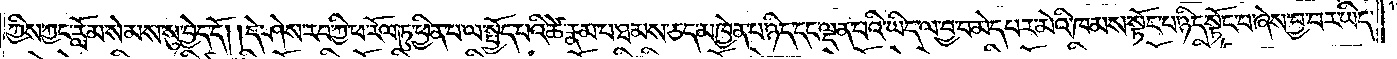ཀྱིས་ཀྱང་རློམ་སེམས་སུ་བྱེད་དོ། །དེ་ཤེས་རབ་ཀྱི་ཕ་རོལ་ཏུ་ཕྱིན་པ་ལ་སྤྱོད་པའི་ཚེ་རྣམ་པ་ཐམས་ཅད་མཁྱེན་པ་ཉིད་དང་ལྡན་པའི་ཡིད་ལ་བྱ་བ་མེད་པར་མེའི་ཁམས་སྟོང་པ་ཉིད་སྟོང་པ་ཞེས་བྱ་བར་ཡིད་
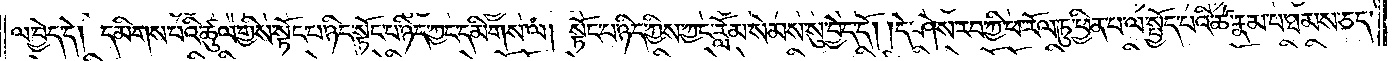ལ་བྱེད་དེ། དམིགས་པའི་ཚུལ་གྱིས་སྟོང་པ་ཉིད་སྟོང་པ་ཉིད་ཀྱང་དམིགས་ལ། སྟོང་པ་ཉིད་ཀྱིས་ཀྱང་རློམ་སེམས་སུ་བྱེད་དོ། །དེ་ཤེས་རབ་ཀྱི་ཕ་རོལ་ཏུ་ཕྱིན་པ་ལ་སྤྱོད་པའི་ཚེ་རྣམ་པ་ཐམས་ཅད་
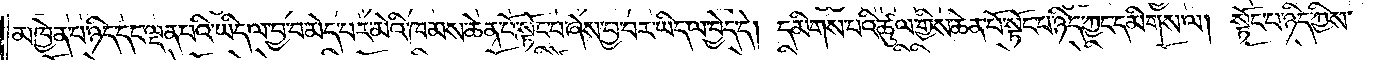མཁྱེན་པ་ཉིད་དང་ལྡན་པའི་ཡིད་ལ་བྱ་བ་མེད་པར་མེའི་ཁམས་ཆེན་པོ་སྟོང་པ་ཞེས་བྱ་བར་ཡིད་ལ་བྱེད་དེ། དམིགས་པའི་ཚུལ་གྱིས་ཆེན་པོ་སྟོང་པ་ཉིད་ཀྱང་དམིགས་ལ། སྟོང་པ་ཉིད་ཀྱིས་
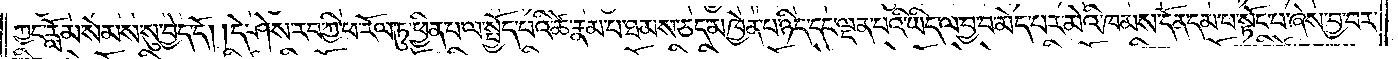ཀྱང་རློམ་སེམས་སུ་བྱེད་དོ། །དེ་ཤེས་རབ་ཀྱི་ཕ་རོལ་ཏུ་ཕྱིན་པ་ལ་སྤྱོད་པའི་ཚེ་རྣམ་པ་ཐམས་ཅད་མཁྱེན་པ་ཉིད་དང་ལྡན་པའི་ཡིད་ལ་བྱ་བ་མེད་པར་མེའི་ཁམས་དོན་དམ་པ་སྟོང་པ་ཞེས་བྱ་བར་
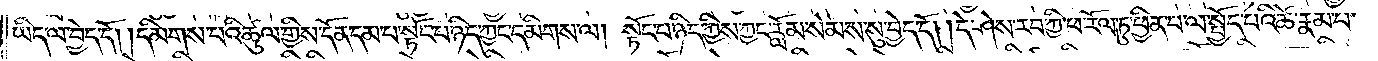ཡིད་ལ་བྱེད་དོ། །དམིགས་པའི་ཚུལ་གྱིས་དོན་དམ་པ་སྟོང་པ་ཉིད་ཀྱང་དམིགས་ལ། སྟོང་པ་ཉིད་ཀྱིས་ཀྱང་རློམ་སེམས་སུ་བྱེད་དོ། །དེ་ཤེས་རབ་ཀྱི་ཕ་རོལ་ཏུ་ཕྱིན་པ་ལ་སྤྱོད་པའི་ཚེ་རྣམ་པ་
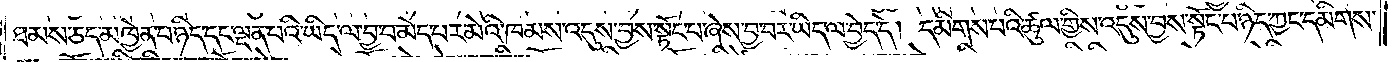ཐམས་ཅད་མཁྱེན་པ་ཉིད་དང་ལྡན་པའི་ཡིད་ལ་བྱ་བ་མེད་པར་མེའི་ཁམས་འདུས་བྱས་སྟོང་པ་ཞེས་བྱ་བར་ཡིད་ལ་བྱེད་དེ། དམིགས་པའི་ཚུལ་གྱིས་འདུས་བྱས་སྟོང་པ་ཉིད་ཀྱང་དམིགས་
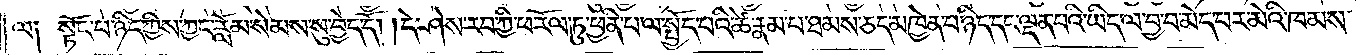ལ། སྟོང་པ་ཉིད་ཀྱིས་ཀྱང་རློམ་སེམས་སུ་བྱེད་དོ། །དེ་ཤེས་རབ་ཀྱི་ཕ་རོལ་ཏུ་ཕྱིན་པ་ལ་སྤྱོད་པའི་ཚེ་རྣམ་པ་ཐམས་ཅད་མཁྱེན་པ་ཉིད་དང་ལྡན་པའི་ཡིད་ལ་བྱ་བ་མེད་པར་མེའི་ཁམས་
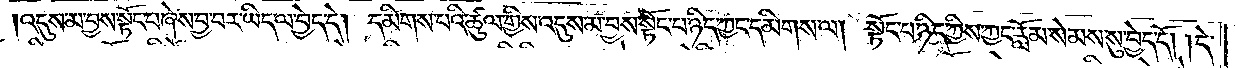འདུས་མ་བྱས་སྟོང་པ་ཞེས་བྱ་བར་ཡིད་ལ་བྱེད་དེ། དམིགས་པའི་ཚུལ་གྱིས་འདུས་མ་བྱས་སྟོང་པ་ཉིད་ཀྱང་དམིགས་ལ། སྟོང་པ་ཉིད་ཀྱིས་ཀྱང་རློམ་སེམས་སུ་བྱེད་དོ། །དེ་
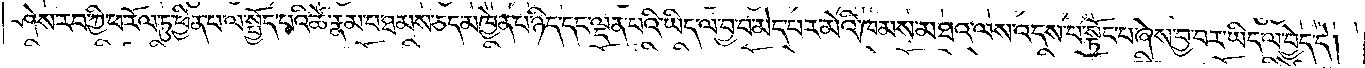ཤེས་རབ་ཀྱི་ཕ་རོལ་ཏུ་ཕྱིན་པ་ལ་སྤྱོད་པའི་ཚེ་རྣམ་པ་ཐམས་ཅད་མཁྱེན་པ་ཉིད་དང་ལྡན་པའི་ཡིད་ལ་བྱ་བ་མེད་པར་མེའི་ཁམས་མཐའ་ལས་འདས་པ་སྟོང་པ་ཞེས་བྱ་བར་ཡིད་ལ་བྱེད་དེ།
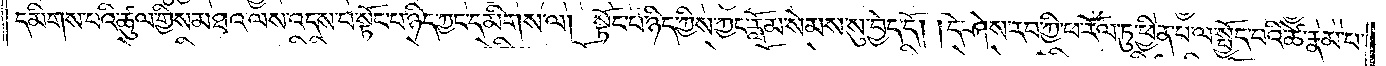དམིགས་པའི་ཚུལ་གྱིས་མཐའ་ལས་འདས་པ་སྟོང་པ་ཉིད་ཀྱང་དམིགས་ལ། སྟོང་པ་ཉིད་ཀྱིས་ཀྱང་རློམ་སེམས་སུ་བྱེད་དོ། །དེ་ཤེས་རབ་ཀྱི་ཕ་རོལ་ཏུ་ཕྱིན་པ་ལ་སྤྱོད་པའི་ཚེ་རྣམ་པ་
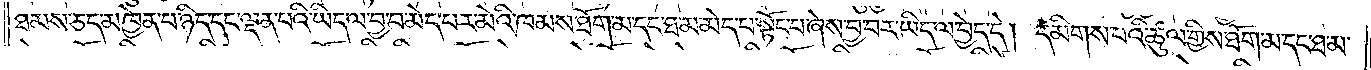ཐམས་ཅད་མཁྱེན་པ་ཉིད་དང་ལྡན་པའི་ཡིད་ལ་བྱ་བ་མེད་པར་མེའི་ཁམས་ཐོག་མ་དང་ཐ་མ་མེད་པ་སྟོང་པ་ཞེས་བྱ་བར་ཡིད་ལ་བྱེད་དེ། དམིགས་པའི་ཚུལ་གྱིས་ཐོག་མ་དང་ཐ་མ་
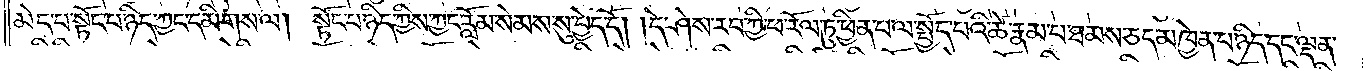མེད་པ་སྟོང་པ་ཉིད་ཀྱང་དམིགས་ལ། སྟོང་པ་ཉིད་ཀྱིས་ཀྱང་རློམ་སེམས་སུ་བྱེད་དོ། །དེ་ཤེས་རབ་ཀྱི་ཕ་རོལ་ཏུ་ཕྱིན་པ་ལ་སྤྱོད་བའི་ཚེ་རྣམ་པ་ཐམས་ཅད་མཁྱེན་པ་ཉིད་དང་ལྡན་
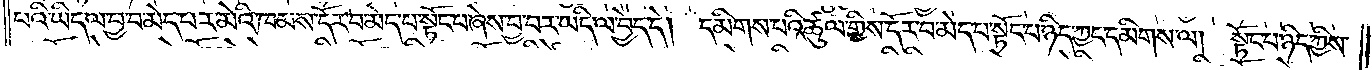པའི་ཡིད་ལ་བྱ་བ་མེད་པར་མེའི་ཁམས་དོར་བ་མེད་པ་སྟོང་པ་ཞེས་བྱ་བར་ཡིད་ལ་བྱེད་དེ། དམིགས་པའི་ཚུལ་གྱིས་དོར་བ་མེད་པ་སྟོང་པ་ཉིད་ཀྱང་དམིགས་ལ། སྟོང་པ་ཉིད་ཀྱིས་
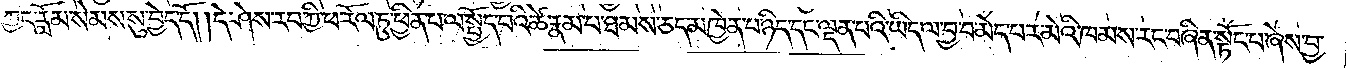ཀྱང་རློམ་སེམས་སུ་བྱེད་དོ། །དེ་ཤེས་རབ་ཀྱི་ཕ་རོལ་ཏུ་ཕྱིན་པ་ལ་སྤྱོད་པའི་ཚེ་རྣམ་པ་ཐམས་ཅད་མཁྱེན་པ་ཉིད་དང་ལྡན་པའི་ཡིད་ལ་བྱ་བ་མེད་པར་མེའི་ཁམས་རང་བཞིན་སྟོང་པ་ཞེས་བྱ་
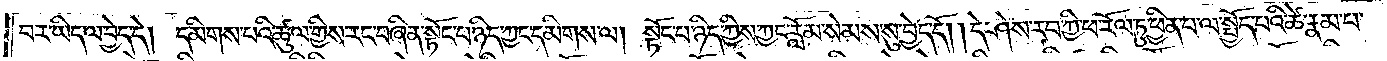བར་ཡིད་ལ་བྱེད་དེ། དམིགས་པའི་ཚུལ་གྱིས་རང་བཞིན་སྟོང་པ་ཉིད་ཀྱང་དམིགས་ལ། སྟོང་པ་ཉིད་ཀྱིས་ཀྱང་རློམ་སེམས་སུ་བྱེད་དོ། །དེ་ཤེས་རབ་ཀྱི་ཕ་རོལ་ཏུ་ཕྱིན་པ་ལ་སྤྱོད་པའི་ཚེ་རྣམ་པ་
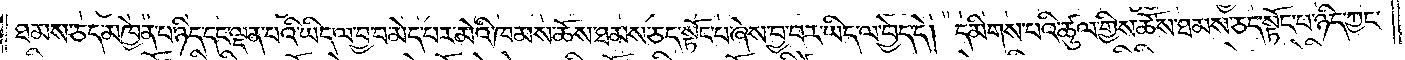ཐམས་ཅད་མཁྱེན་པ་ཉིད་དང་ལྡན་པའི་ཡིད་ལ་བྱ་བ་མེད་པར་མེའི་ཁམས་ཆོས་ཐམས་ཅད་སྟོང་པ་ཞེས་བྱ་བར་ཡིད་ལ་བྱེད་དེ། དམིགས་པའི་ཚུལ་གྱིས་ཆོས་ཐམས་ཅད་སྟོང་པ་ཉིད་ཀྱང་
